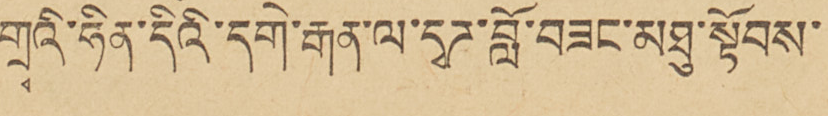གྲྭའི་ཧིན་དེའི་དགེ་རྒན་དྭཊ་བློ་བཟང་མཐུ་སྟོབས་
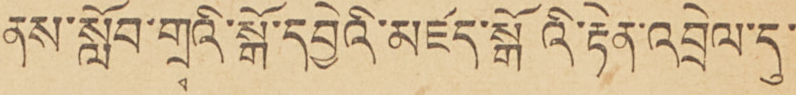ནས་སློབ་གྲྭའི་སྒོ་དབྱེའི་མཛད་སྒོའི་རྟེན་འབྲེལ་དུ་
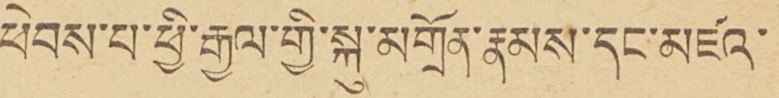ཕེབས་པ་ཕྱི་རྒྱལ་གྱི་སྐུ་མགྲོན་རྣམས་དང་མཛའ་
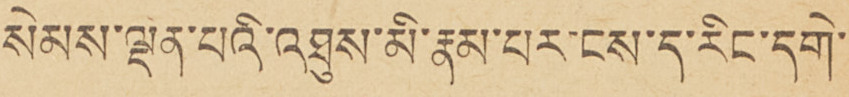སེམས་ལྡན་པའི་འཐུས་མི་རྣམ་པར་ངས་ད་རིང་དགེ་
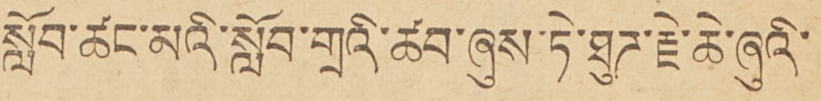སློབ་ཚང་མའི་སློབ་གྲའི་ཚབ་ཞུས་ཏེ་ཐུཊ་རྗེ་ཆེ་ཞུའི་
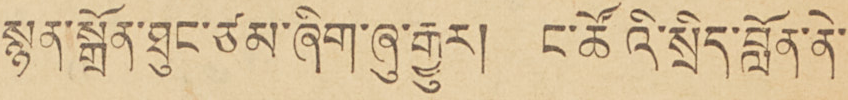སྙན་སྒྲོན་ཐུང་ཙམ་ཞིག་ཞུ་རྒྱུར། ང་ཚོའི་སྲིད་བློན་ནེ་
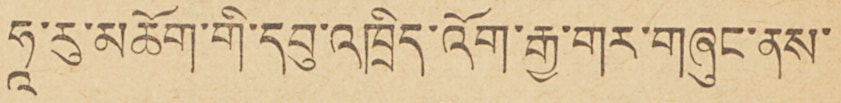ཧཱ་རུ་མཆོག་གི་དབུ་འཁྲིད་འོག་རྒྱ་གར་གཞུང་ནས
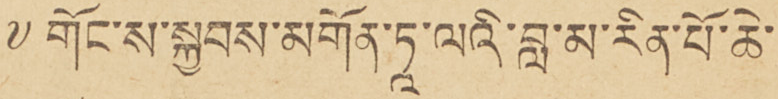༸གོང་ས་སྐྱབས་མགོན་ཏཱ་ལའི་བླ་མ་རིན་པོ་ཆེ་
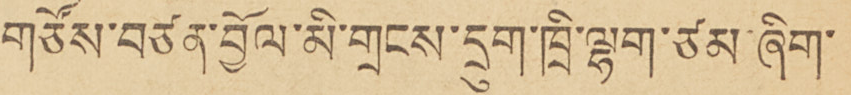གཙོས་བཙན་བྱོལ་མི་གྲངས་དྲུག་ཁྲི་ལྷག་ཙམ་ཞིག་
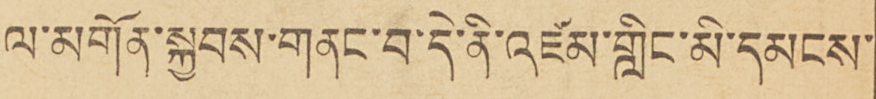ལ་མགོན་སྐྱབས་གནང་བ་དེ་ནི་འཛམ་གླིང་མི་དམངས་
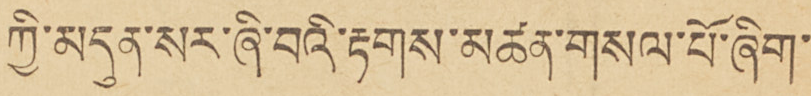ཀྱི་མདུན་སར་ཞི་བའི་རྟགས་མཚན་གསལ་པོ་ཞིག་
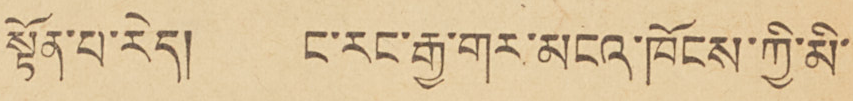སྟོན་པ་རེད། ང་རང་རྒྱ་གར་མངའ་ཁོངས་ཀྱི་མི་
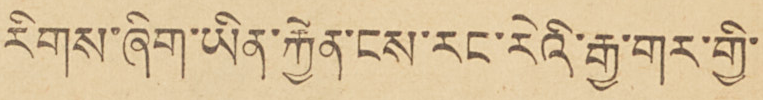རིགས་ཞིག་ཡིན་རྐྱེན་ངས་རང་རེའི་རྒྱ་གར་གྱི་
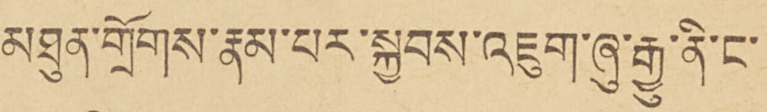མཐུན་གྲོགས་རྣམ་པར་སྐྱབས་འཇུག་ཞུ་རྒྱུ་ནི་ང་
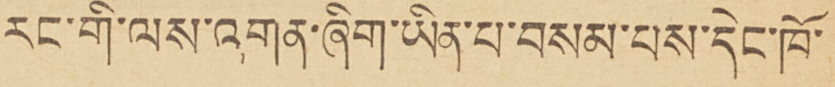རང་གི་ལས་འགན་ཞིག་ཡིན་པ་བསམ་པས་དེང་ཁོ་
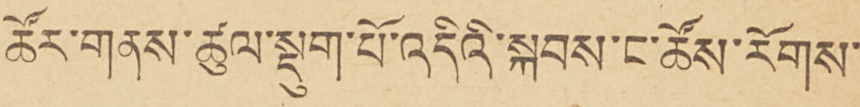ཚོར་གནས་ཚུལ་སྡུག་པོ་འདིའི་སྐབས་ང་ཚོས་རོགས་
